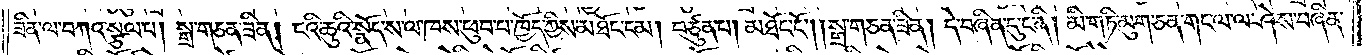ཟིན་ལ་བཀའ་སྩལ་པ། སྒྲ་གཅན་ཟིན། ངའི་ཆུའི་སྣོད་ས་ལ་ཁས་ཕུབ་པ་ཁྱོད་ཀྱིས་མཐོང་ངམ། བཙུན་པ། མཐོང་ངོ༌། །སྒྲ་གཅན་ཟིན། དེ་བཞིན་དུ་ང་ནི། མི་གཏི་མུག་ཅན་གང་ལ་ལ་ཤེས་བཞིན་
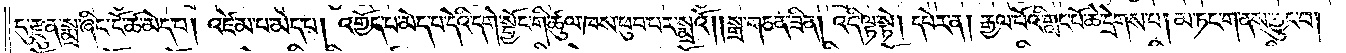དུ་རྫུན་སྨྲ་ཞིང་ངོ་ཚ་མེད་པ། འཛེམ་པ་མེད་པ། འགྱོད་པ་མེད་པ་དེའི་དགེ་སྦྱོང་གི་ཚུལ་ཁས་ཕུབ་བར་སྨྲའོ། །སྒྲ་གཅན་ཟིན། འདི་ལྟ་སྟེ། དཔེར་ན། རྒྱལ་པོའི་གླང་པོ་ཆེ་དྲེགས་པ། མ་ཏང་གནས་བྱུང་བ།
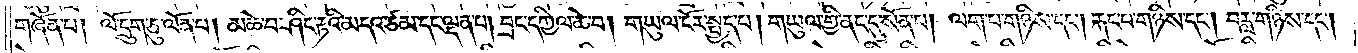གཞོན་པ། ལོ་དྲུག་ཅུ་ལོན་པ། མཆེ་བ་ཤིང་རྟའི་མདའ་ཙམ་དང་ལྡན་པ། བྲང་དཀྱིལ་ཆེ་བ། གཡུལ་ངོར་སྤྱད་པ། གཡུལ་གྱི་ནང་དུ་སོན་བ། ལག་པ་གཉིས་དང༌། རྐང་པ་གཉིས་དང༌། བརླ་གཉིས་དང༌།
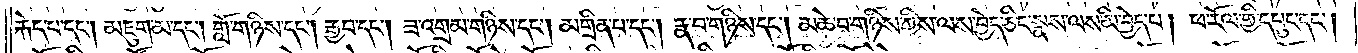རྐེད་པ་དང༌། མཇུག་མ་དང༌། གློ་གཉིས་དང༌། རྒྱབ་དང༌། ཟ་འགྲམ་གཉིས་དང༌། མགྲིན་པ་དང༌། རྣ་བ་གཉིས་དང༌། མཆེ་བ་གཉིས་ཀྱིས་ལས་བྱེད་ཅིང་སྣས་ལས་མི་བྱེད་པ། ཕ་རོལ་གྱི་དཔུང་དང༌།
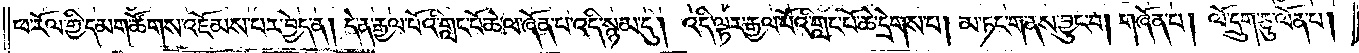ཕ་རོལ་གྱི་དམག་ཚོགས་འཇོམས་པར་བྱེད་ན། དེ་ན་རྒྱལ་པོའི་གླང་པོ་ཆེ་ལ་ཞོན་པ་འདི་སྙམ་དུ། འདི་ལྟར་རྒྱལ་པོའི་གླང་པོ་ཆེ་དྲེགས་པ། མ་ཏང་གནས་བྱུང་བ། གཞོན་པ། ལོ་དྲུག་ཅུ་ལོན་པ།
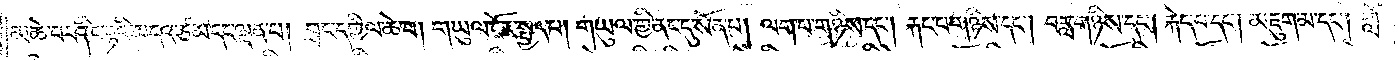མཆེ་བ་ཤིང་རྟའི་མདའ་ཙམ་དང་ལྡན་པ། བྲང་དཀྱིལ་ཆེ་བ། གཡུལ་ངོར་སྤྱད་པ། གཡུལ་གྱི་ནང་དུ་སོན་པ། ལག་པ་གཉིས་དང༌། རྐང་པ་གཉིས་དང༌། བརླ་གཉིས་དང༌། རྐེད་པ་དང༌། མཇུག་མ་དང༌། གློ་
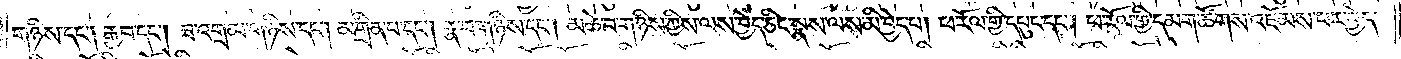གཉིས་དང༌། རྒྱབ་དང༌། ཟ་འགྲམ་གཉིས་དང༌། མགྲིན་པ་དང༌། རྣ་བ་གཉིས་དང༌། མཆེ་བ་གཉིས་ཀྱིས་ལས་བྱེད་ཅིང་སྣས་ལས་མི་བྱེད་པ། ཕ་རོལ་གྱི་དཔུང་དང༌། ཕ་རོལ་གྱི་དམག་ཚོགས་འཇོམས་པར་བྱེད་
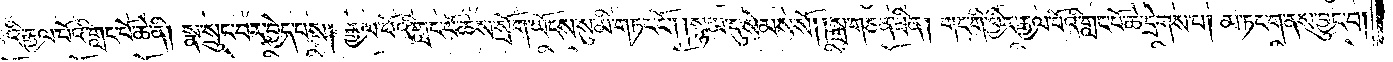པའི་རྒྱལ་པོའི་གླང་པོ་ཆེ་ནི། སྣ་སྲུང་བར་བྱེད་པས། རྒྱལ་པོའི་གླང་པོ་ཆེས་སྲོག་ཡོངས་སུ་མི་གཏང་ངོ༌། །སྙམ་དུ་སེམས་སོ། །སྒྲ་གཅན་ཟིན། གང་གི་ཕྱིར་རྒྱལ་པོའི་གླང་པོ་ཆེ་དྲེགས་པ། མ་ཏང་ག་ནས་བྱུང་བ།
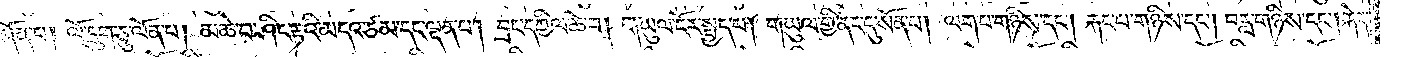ཞོན་པ། ལོ་དྲུག་ཅུ་ལོན་པ། མཆེ་བ་ཤིང་རྟའི་མདའ་ཙམ་དང་ལྡན་པ། བྲང་དཀྱིལ་ཆེ་བ། གཡུལ་ངོར་སྤྱད་པ། གཡུལ་གྱི་ནང་དུ་སོན་པ། ལག་པ་གཉིས་དང༌། རྐང་པ་གཉིས་དང༌། བརླ་གཉིས་དང༌། རྐེད་
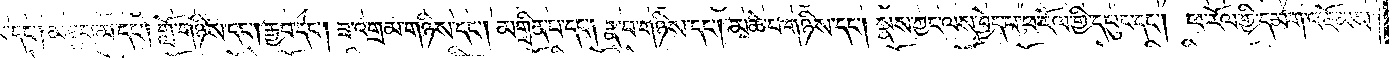པ་དང༌། མཇུག་མ་དང༌། གློ་གཉིས་དང༌། རྒྱབ་དང༌། ཟ་འགྲམ་གཉིས་དང༌། མགྲིན་པ་དང༌། རྣ་བ་གཉིས་དང༌། མཆེ་བ་གཉིས་དང༌། སྣས་ཀྱང་ལས་བྱེད་པ་ཕ་རོལ་གྱི་དཔུང་དང༌། ཕ་རོལ་གྱི་དམག་འཇོམས་
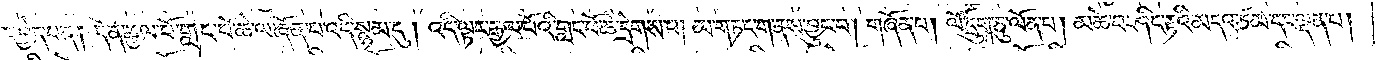པར་བྱེད་པ་ན། དེ་ན་རྒྱལ་པོ་གླང་པོ་ཆེ་ལ་ཞོན་པ་འདི་སྙམ་དུ། འདི་ལྟར་རྒྱལ་པོའི་གླང་པོ་ཆེ་དྲེགས་པ། མ་གཏང་ག་ནས་བྱུང་བ། གཞོན་པ། ལོ་དྲུག་ཅུ་ལོན་པ། མཆེ་བ་ཤིང་རྟའི་མདའ་ཙམ་དང་ལྡན་པ།
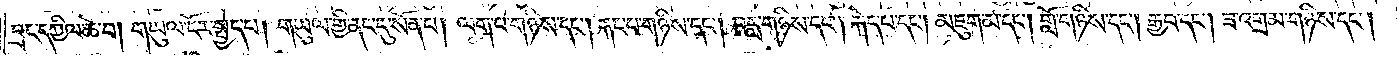བྲང་དཀྱིལ་ཆེ་བ། གཡུལ་ངོར་སྤྱད་པ། གཡུལ་གྱི་ནང་དུ་སོན་པ། ལག་པ་གཉིས་དང༌། རྐང་པ་གཉིས་དང༌། བརླ་གཉིས་དང༌། རྐེད་པ་དང༌། མཇུག་མ་དང༌། གློ་གཉིས་དང༌། རྒྱབ་དང༌། ཟ་འགྲམ་གཉིས་དང༌།
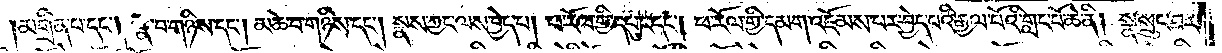མགྲིན་པ་དང༌། རྣ་བ་གཉིས་དང༌། མཆེ་བ་གཉིས་དང༌། སྣས་ཀྱང་ལས་བྱེད་པ། ཕ་རོལ་གྱི་དཔུང་དང༌། ཕ་རོལ་གྱི་དམག་འཇོམས་པར་བྱེད་པའི་རྒྱལ་པོའི་གླང་པོ་ཆེ་ནི། སྣ་སྲུང་བར་
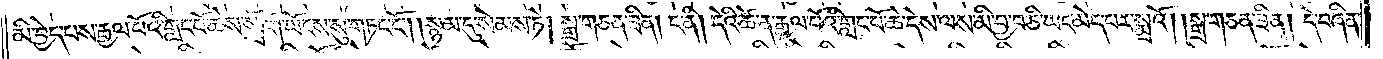མི་བྱེད་པས་རྒྱལ་པོའི་གླང་པོ་ཆེས་སྲོག་ཡོངས་སུ་གཏང་ངོ༌། །སྙམ་དུ་སེམས་ཏེ། སྒྲ་གཅན་ཟིན། ང་ནི། དེའི་ཚེ་ན་རྒྱལ་པོའི་གླང་པོ་ཆེ་དེས་ལས་མི་བྱ་བ་ཅི་ཡང་མེད་པར་སྨྲའོ། །སྒྲ་གཅན་ཟིན། དེ་བཞིན་
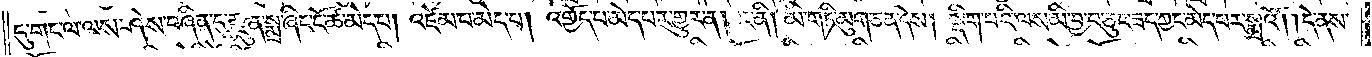དུ་གང་ལ་ལས་ཤེས་བཞིན་དུ་རྫུན་སྨྲ་ཞིང་ངོ་ཚ་མེད་པ། འཛེམ་པ་མེད་པ། འགྱོད་པ་མེད་པར་གྱུར་ན། ང་ནི། མི་གཏི་མུག་ཅན་དེས། སྡིག་པའི་ལས་མི་བྱ་བ་ཅུང་ཟད་ཀྱང་མེད་པར་སྨྲའོ། །དེ་ནས་
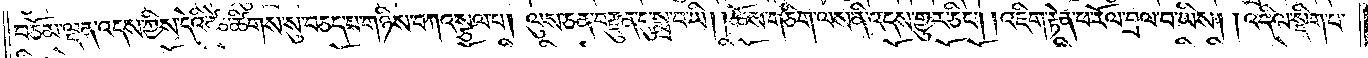བཅོམ་ལྡན་འདས་ཀྱིས་དེའི་ཚེ་ཚིགས་སུ་བཅད་པ་གཉིས་བཀའ་སྩལ་པ། ལུས་ཅན་བརྫུན་དུ་སྨྲ་བ་ཡི། ཆོས་གཅིག་ལས་ནི་འདས་གྱུར་ཅིང༌། །འཇིག་རྟེན་ཕ་རོལ་བྲལ་བ་ཡིས། །འདི་ལ་སྡིག་པ་
